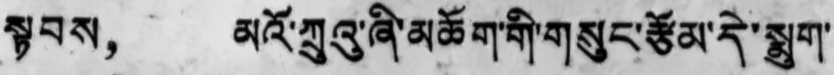སྟབས， མའོ་ཀྲུའུ་ཞི་མཆོག་གི་གསུང་རྩོམ་དེ་སྨུག་
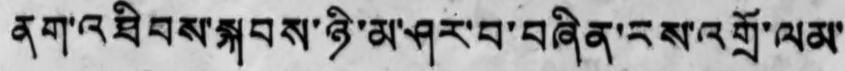ནག་འཐིབས་སྐབས་ཉི་མ་ཤར་བ་བཞིན་རས་འགྲོ་ལམ་
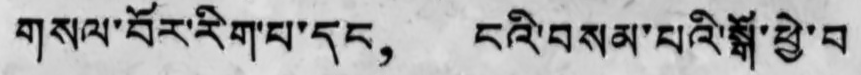གསལ་བོར་རིག་པ་དང， ངའི་བསམ་པའི་སྒོ་ཕྱེ་བ་
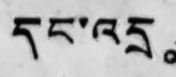དང་འདྲ。
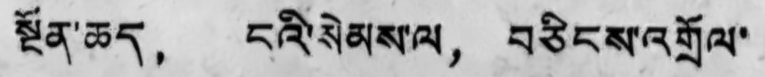སྔོན་ཆད， ངའི་སེམས་ལ， བཅིངས་འགྲོལ་
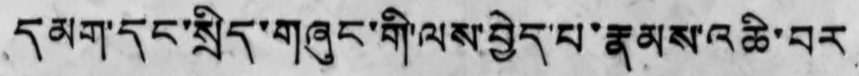དམག་དང་སྲིད་གཞུང་གི་ལས་བྱེད་པ་རྣམས་འཆི་བར
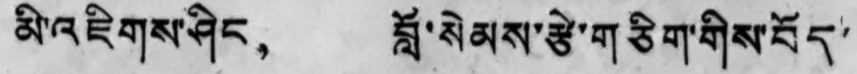མི་འཇིགས་ཤིང， བློ་སེམས་རྩེ་གཅིག་གིས་བོད་
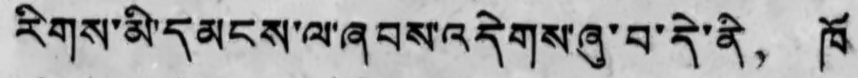རིགས་མི་དམངས་ལ་ཞབས་འདེགས་ཞུ་བ་དེ་ནི， ཁོ་
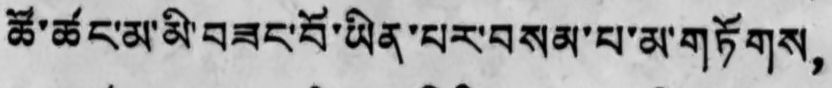ཚོ་ཚང་མ་མི་བཟང་པོ་ཡིན་པར་བསམ་པ་མ་གཏོགས，
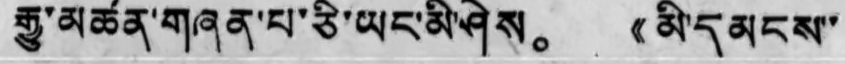རྒྱུ་མཚན་གཞན་པ་ཅི་ཡང་མི་ཤེས。 《མི་དམངས་་
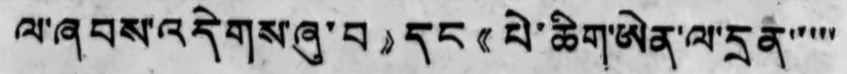ལ་ཞབས་འདེགས་ཞུ་བ》དང《པེ་ཆིག་ཨེན་ལ་དྲན་་་་་
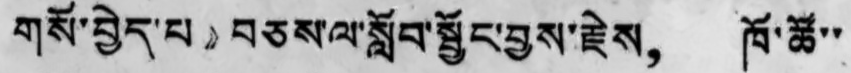གསོ་བྱེད་པ》བཅས་ལ་སློབ་སྦྱོང་བྱས་རྗེས， ཁོ་ཚོ་་
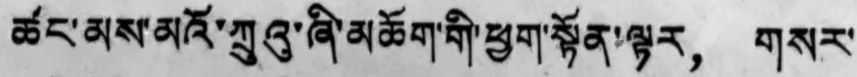ཚང་མས་མའོ་ཀྲུའུ་ཞི་མཆོག་གི་ཕྱག་སྟོན་ལྟར， གསར་
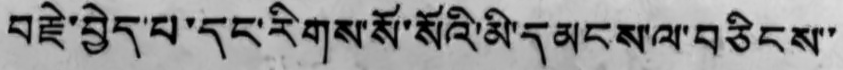བརྗེ་བྱེད་པ་དང་རིགས་སོ་སོའི་མི་དམངས་ལ་བཅིངས་་
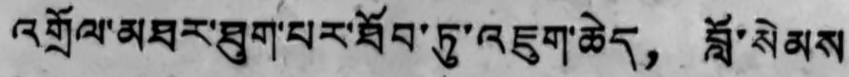འགྲོལ་མཐར་ཐུག་པར་ཐོབ་ཏུ་འཇུག་ཆེད， བློ་སེམས་
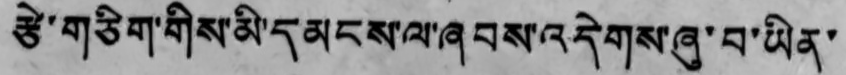རྩེ་གཅིག་གིས་མི་དམངས་ལ་ཞབས་འདེགས་ཞུ་བ་ཡིན་
